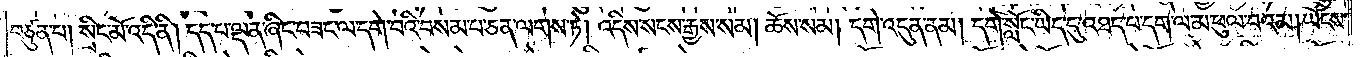བཙུན་པ། སྲིང་མོ་འདི་ནི། དད་པ་ལྡན་ཞིང་བཟང་ལ་དགེ་བའི་བསམ་པ་ཅན་ལགས་ཏེ། འདིས་སངས་རྒྱས་སམ། ཆོས་སམ། དགེ་འདུན་ནམ། དགེ་སློང་ཡིད་དུ་འཐད་པ་དག་ལ་མ་ཕུལ་བའམ། ཡོངས་
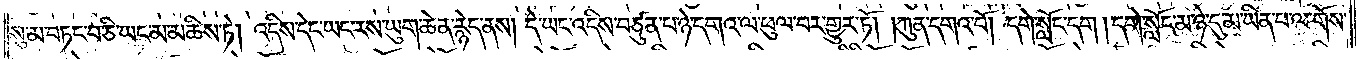སུ་མ་བཏང་བ་ཅི་ཡང་མ་མཆིས་ཏེ། འདིས་དེང་ཡང་རས་ཡུག་ཆེན་རྙེད་ནས། དེ་ཡང་འདིས་བཙུན་པ་ཉེ་དགའ་ལ་ཕུལ་བར་གྱུར་ཏོ། །ཀུན་དགའ་བོ། དགེ་སློང་དག། དགེ་སློང་མ་ཉེ་དུ་མ་ཡིན་པ་ལ་གོས་
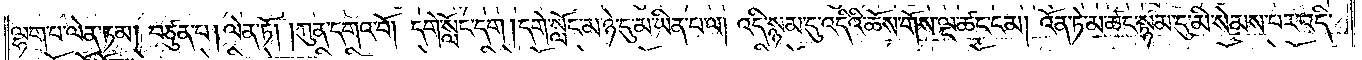ལྷག་པ་ལེན་ཏམ། བཙུན་པ། ལེན་ཏོ། །ཀུན་དགའ་བོ། དགེ་སློང་དག །དགེ་སློང་མ་ཉེ་དུ་མ་ཡིན་པ་ལ། འདི་སྙམ་དུ་འདིའི་ཆོས་གོས་ལྔ་ཚང་ངམ། འོན་ཏེ་མ་ཚང་སྙམ་དུ་མི་སེམས་པར་འདི་
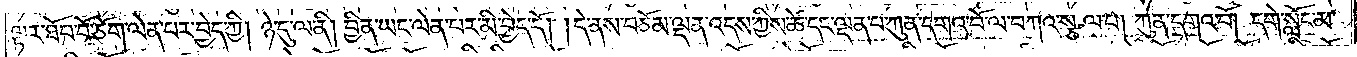ལྟར་ཐོབ་བོ་ཅོག་ལེན་པར་བྱེད་ཀྱི། ཉེ་དུ་ལ་ནི། བྱིན་ཡང་ལེན་པར་མི་བྱེད་དོ། །དེ་ནས་བཅོམ་ལྡན་འདས་ཀྱིས་ཚེ་དང་ལྡན་པ་ཀུན་དགའ་བོ་ལ་བཀའ་སྩལ་པ། ཀུན་དགའ་བོ། དགེ་སློང་མ་
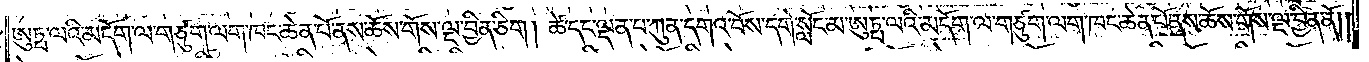ཨུཏྤ་ལའི་མདོག་ལ་གཙུག་ལག་ཁང་ཆེན་པོ་ནས་ཆོས་གོས་ལྔ་བྱིན་ཅིག །ཚེ་དང་ལྡན་པ་ཀུན་དགའ་བོས་དགེ་སློང་མ་ཨུཏྤ་ལའི་མདོག་ལ་གཙུག་ལག་ཁང་ཆེན་པོ་ནས་ཆོས་གོས་ལྔ་བྱིན་ནོ། །
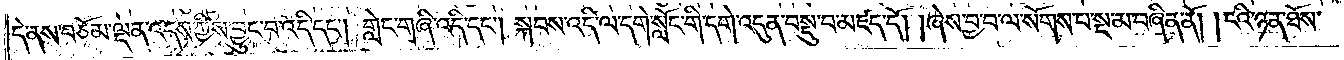དེ་ནས་བཅོམ་ལྡན་འདས་ཀྱིས་བྱུང་བ་འདི་དང༌། གླེང་གཞི་འདི་དང༌། སྐབས་འདི་ལ་དགེ་སློང་གི་དགེ་འདུན་བསྡུ་བ་མཛད་དོ། །ཞེས་བྱ་བ་ལ་སོགས་པ་སྔ་མ་བཞིན་ནོ། །ངའི་ཉན་ཐོས་
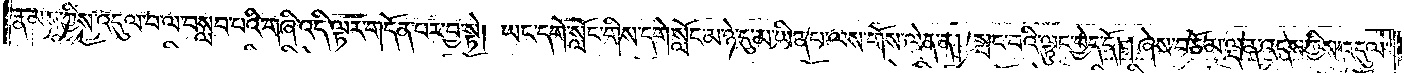རྣམས་ཀྱིས་འདུལ་བ་ལ་བསླབ་པའི་གཞི་འདི་ལྟར་གདོན་པར་བྱ་སྟེ། ཡང་དགེ་སློང་གིས་དགེ་སློང་མ་ཉེ་དུ་མ་ཡིན་པ་ལས་གོས་ལེན་ན། སྤང་བའི་ལྟུང་བྱེད་དོ། །ཞེས་བཅོམ་ལྡན་འདས་ཀྱིས་འདུལ་
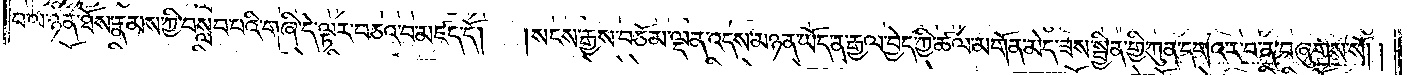བ་ལ་ཉན་ཐོས་རྣམས་ཀྱི་བསླབ་པའི་གཞི་དེ་ལྟར་བཅའ་བ་མཛད་དོ། །སངས་རྒྱས་བཅོམ་ལྡན་འདས་མཉན་ཡོད་ན་རྒྱལ་བྱེད་ཀྱི་ཚལ་མགོན་མེད་ཟས་སྦྱིན་གྱི་ཀུན་དགའ་ར་བ་ན་བཞུགས་སོ། །
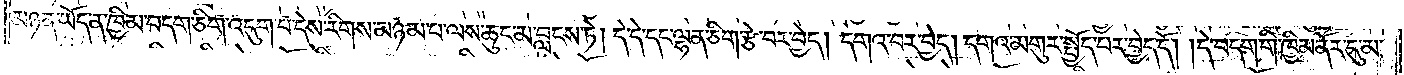མཉན་ཡོད་ན་ཁྱིམ་བདག་ཅིག་འདུག་པ་དེས་རིགས་མཉམ་པ་ལས་ཆུང་མ་བླངས་ཏེ། དེ་དེ་དང་ལྷན་ཅིག་རྩེ་བར་བྱེད། དགའ་བར་བྱེད། དགའ་མགུར་སྤྱོད་པར་བྱེད་དོ། །དེ་བདག་གི་ཁྱིམ་ནོར་དུ་མ་
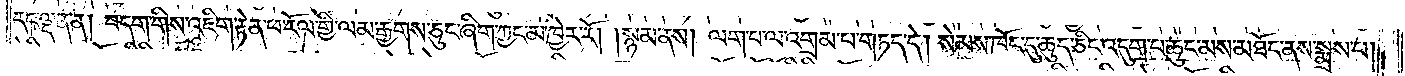དང་ལྡན་ན། བདག་གིས་འཇིག་རྟེན་ཕ་རོལ་གྱི་ལམ་རྒྱགས་ཅུང་ཞིག་ཀྱང་མ་ཁྱེར་རོ། །སྙམ་ནས། ལག་པ་ལ་འགྲམ་པ་གཏད་དེ། སེམས་ཁོང་དུ་ཆུད་ཅིང་འདུག་པ་ཆུང་མས་མཐོང་ནས་སྨྲས་པ།
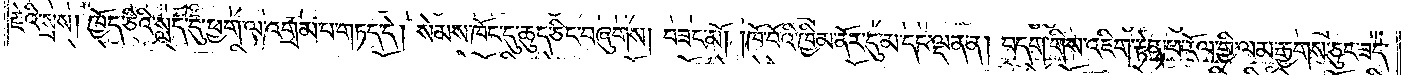རྗེའི་སྲས། ཁྱོད་ཅིའི་སླད་དུ་ཕྱག་ལ་འགྲམ་པ་གཏད་དེ། སེམས་ཁོང་དུ་ཆུད་ཅིང་བཞུགས། བཟང་མོ། །ཁོ་བོའི་ཁྱིམ་ནོར་དུ་མ་དང་ལྡན་ན། བདག་གིས་འཇིག་རྟེན་ཕ་རོལ་གྱི་ལམ་རྒྱགས་ཅུང་ཟད་
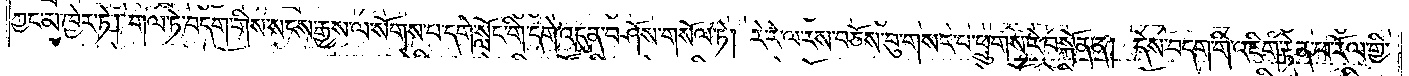ཀྱང་མ་ཁྱེར་ཏེ། གལ་ཏེ་བདག་གིས་སངས་རྒྱས་ལ་སོགས་པ་དགེ་སློང་གི་དགེ་འདུན་བཤོས་གསོལ་ཏེ། རེ་རེ་ལ་རས་བཅོས་བུ་གསར་པ་ཕྲུགས་རེ་བསྐོན་ན། དེས་བདག་གི་འཇིག་རྟེན་ཕ་རོལ་གྱི་
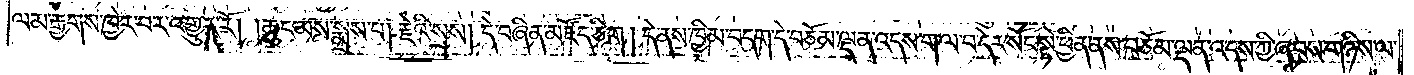ལམ་རྒྱགས་ཁྱེར་བར་འགྱུར་རོ། །ཆུང་མས་སྨྲས་པ། རྗེའི་སྲས། དེ་བཞིན་མཛོད་ཅིག །དེ་ནས་ཁྱིམ་བདག་དེ་བཅོམ་ལྡན་འདས་ག་ལ་བ་དེར་སོང་སྟེ་ཕྱིན་ནས་བཅོམ་ལྡན་འདས་ཀྱི་ཞབས་གཉིས་ལ་
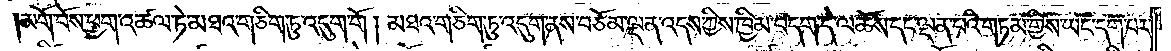མགོ་བོས་ཕྱག་འཚལ་ཏེ་མཐའ་གཅིག་ཏུ་འདུག་གོ །མཐའ་གཅིག་ཏུ་འདུག་ནས་བཅོམ་ལྡན་འདས་ཀྱིས་ཁྱིམ་བདག་དེ་ལ་ཆོས་དང་ལྡན་པའི་གཏམ་གྱིས་ཡང་དག་པར་
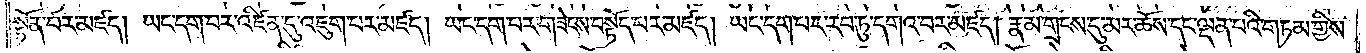སྟོན་པར་མཛད། ཡང་དག་པར་འཛིན་དུ་འཇུག་པར་མཛད། ཡང་དག་པར་གཟེངས་བསྟོད་པར་མཛད། ཡང་དག་པར་རབ་ཏུ་དགའ་བར་མཛད། རྣམ་གྲངས་དུ་མར་ཆོས་དང་ལྡན་པའི་གཏམ་གྱིས་
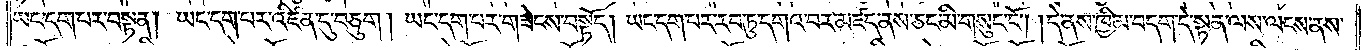ཡང་དག་པར་བསྟན། ཡང་དག་པར་འཛིན་དུ་བཅུག །ཡང་དག་པར་གཟེངས་བསྟོད། ཡང་དག་པར་རབ་ཏུ་དགའ་བར་མཛད་ནས་ཅང་མི་གསུང་ངོ༌། །དེ་ནས་ཁྱིམ་བདག་དེ་སྟན་ལས་ལངས་ནས་
